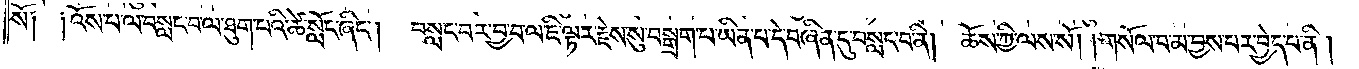སོ༑ ༑འོས་པ་ལ་བསླང་བ་ལ་ཐུག་པའི་ཚེ་སློང་ཞིང༌། བསླང་བར་བྱ་བ་ལ་ཇི་ལྟར་རྗེས་སུ་བསྒྲག་པ་ཡིན་པ་དེ་བཞིན་དུ་བསླང་བ་ནི། ཆོས་ཀྱི་ལས་སོ། །གསོལ་པ་མ་བྱས་པར་བྱེད་པ་ནི།
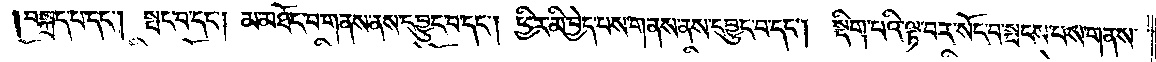བསྐྲད་པ་དང༌། སྤང་བ་དང༌། མ་མཐོང་བ་གནས་ནས་དབྱུང་བ་དང༌། ཕྱིར་མི་བྱེད་པས་གནས་ནས་དབྱུང་བ་དང༌། སྡིག་པའི་ལྟ་བར་སོང་བ་སྤངས་པས་གནས་
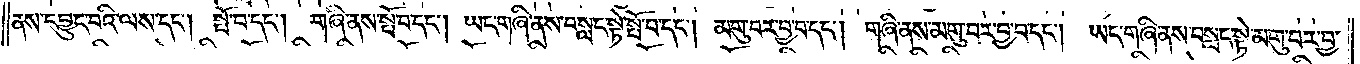ནས་དབྱུང་བའི་ལས་དང༌། སྤོ་བ་དང༌། གཞི་ནས་སྤོ་བ་དང༌། ཡང་གཞི་ནས་བསླང་སྟེ་སྤོ་བ་དང༌། མགུ་བར་བྱ་བ་དང༌། གཞི་ནས་མགུ་བར་བྱ་བ་དང༌། ཡང་གཞི་ནས་བསླང་སྟེ་མགུ་བར་བྱ་
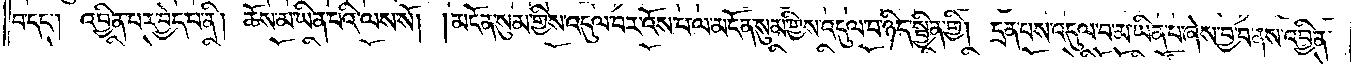བ་དང༌། འབྱིན་པར་བྱེད་པ་ནི། ཆོས་མ་ཡིན་པའི་ལས་སོ། །མངོན་སུམ་གྱིས་འདུལ་བར་འོས་པ་ལ་མངོན་སུམ་གྱིས་འདུལ་བ་ཉིད་སྦྱིན་གྱི། དྲན་པས་འདུལ་བ་མ་ཡིན་པ་ཞེས་བྱ་བ་ནས་འབྱིན་
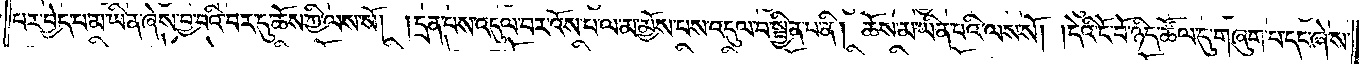པར་བྱེད་པ་མ་ཡིན་ཞེས་བྱ་བའི་བར་དུ་ཆོས་ཀྱི་ལས་སོ། །དྲན་པས་འདུལ་བར་འོས་པ་ལ་མ་མྱོས་པས་འདུལ་བ་སྦྱིན་པ་ནི། །ཆོས་མ་ཡིན་པའི་ལས་སོ། །དེའི་ངོ་བོ་ཉིད་ཚོལ་དུ་གཞུག་པ་དང་ཞེས་
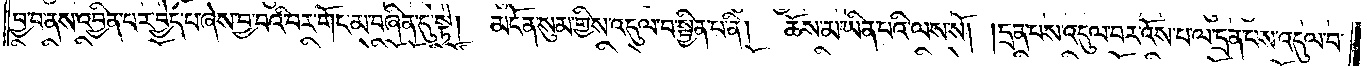བྱ་བ་ནས་འབྱིན་པར་བྱེད་པ་ཞེས་བྱ་བའི་བར་གོང་མ་བཞིན་དུ་སྟེ། མངོན་སུམ་གྱིས་འདུལ་བ་སྦྱིན་པ་ནི། ཆོས་མ་ཡིན་པའི་ལས་སོ། །དྲན་པས་འདུལ་བར་འོས་པ་ལ་དྲན་པས་འདུལ་བ་
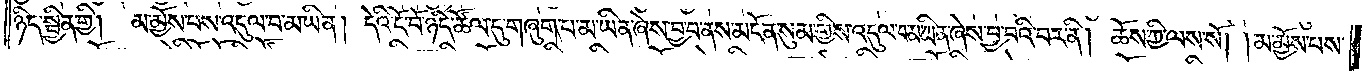ཉིད་སྦྱིན་གྱི། མ་མྱོས་པས་འདུལ་བ་མ་ཡིན། དེའི་ངོ་བོ་ཉིད་ཚོལ་དུ་གཞུག་པ་མ་ཡིན་ཞེས་བྱ་བ་ནས་མངོན་སུམ་གྱིས་འདུལ་བ་མ་ཡིན་ཞེས་བྱ་བའི་བར་ནི། ཆོས་ཀྱི་ལས་སོ། །མ་མྱོས་པས་
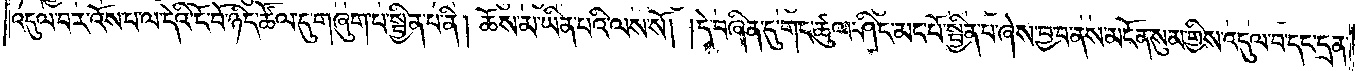འདུལ་བར་འོས་པ་ལ་དེའི་ངོ་བོ་ཉིད་ཚོལ་དུ་གཞུག་པ་སྦྱིན་པ་ནི། ཆོས་མ་ཡིན་པའི་ལས་སོ། དེ་བཞིན་དུ་གང་ཚུལ་ཤིང་མང་པོ་སྦྱིན་པ་ཞེས་བྱ་བ་ནས་མངོན་སུམ་གྱིས་འདུལ་བ་དང་དྲན་
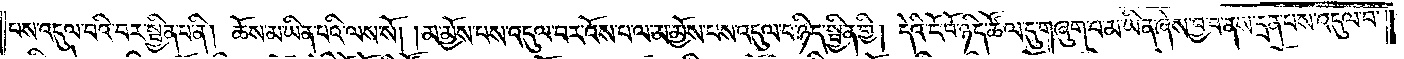པས་འདུལ་བའི་བར་སྦྱིན་པ་ནི། ཆོས་མ་ཡིན་པའི་ལས་སོ། །མ་མྱོས་པས་འདུལ་བར་འོས་པ་ལ་མ་མྱོས་པས་འདུལ་བ་ཉིད་སྦྱིན་གྱི། དེའི་ངོ་བོ་ཉིད་ཚོལ་དུ་གཞུག་པ་མ་ཡིན་ཞེས་བྱ་བ་ནས་དྲན་པས་འདུལ་བ་
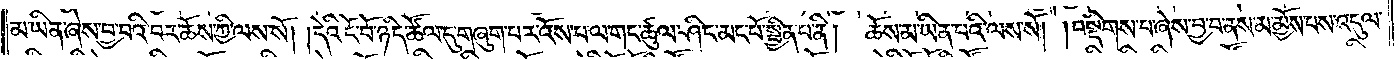མ་ཡིན་ཞེས་བྱ་བའི་བར་ཆོས་ཀྱི་ལས་སོ། །དེའི་ངོ་བོ་ཉིད་ཚོལ་དུ་གཞུག་པར་འོས་པ་ལ་གང་ཚུལ་ཤིང་མང་པོ་སྦྱིན་པ་ནི། ཆོས་མ་ཡིན་པའི་ལས་སོ། །བསྡིགས་པ་ཞེས་བྱ་བ་ནས་མ་མྱོས་པས་འདུལ་
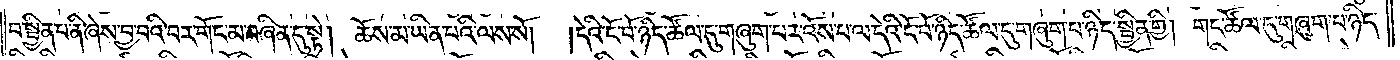བ་སྦྱིན་པ་ནི་ཞེས་བྱ་བའི་བར་གོང་མ་བཞིན་དུ་སྟེ། ཆོས་མ་ཡིན་པའི་ལས་སོ། །དེའི་ངོ་བོ་ཉིད་ཚོལ་དུ་གཞུག་པར་འོས་པ་ལ་དེའི་ངོ་བོ་ཉིད་ཚུལ་དུ་གཞུག་པ་ཉིད་སྦྱིན་གྱི། གང་ཚོལ་དུ་གཞུག་པ་ཉིད་
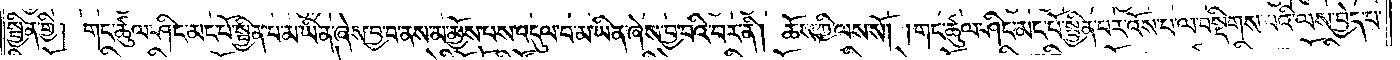སྦྱིན་གྱི། གང་ཚུལ་ཤིང་མང་པོ་སྦྱིན་པ་མ་ཡིན་ཞེས་བྱ་བ་ནས་མ་མྱོས་པས་འདུལ་བ་མ་ཡིན་ཞེས་བྱ་བའི་བར་ནི། ཆོས་ཀྱི་ལས་སོ། །གང་ཚུལ་ཤིང་མང་པོ་སྦྱིན་པར་འོས་པ་ལ་བསྡིགས་པའི་ལས་བྱེད་པ་
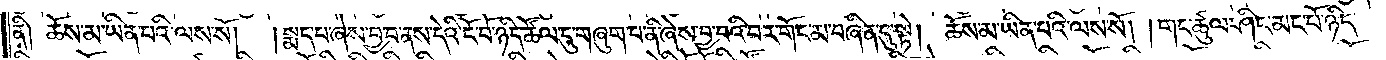ནི། ཆོས་མ་ཡིན་པའི་ལས་སོ། །སྨད་པ་ཞེས་བྱ་བ་ནས་དེའི་ངོ་བོ་ཉིད་ཚོལ་དུ་གཞུག་པ་ནི་ཞེས་བྱ་བའི་བར་གོང་མ་བཞིན་དུ་སྟེ། ཆོས་མ་ཡིན་པའི་ལས་སོ། །གང་ཚུལ་ཤིང་མང་པོ་ཉིད་
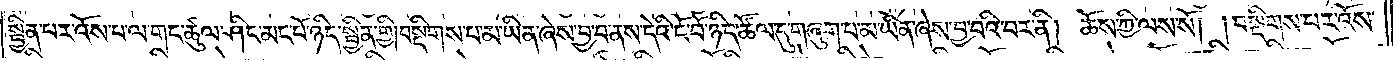སྦྱིན་པར་འོས་པ་ལ་གང་ཚུལ་ཤིང་མང་པོ་ཉིད་སྦྱིན་གྱི། བསྡིགས་པ་མ་ཡིན་ཞེས་བྱ་བ་ནས་དེའི་ངོ་བོ་ཉིད་ཚོལ་དུ་གཞུག་པ་མ་ཡིན་ཞེས་བྱ་བའི་བར་ནི། ཆོས་ཀྱི་ལས་སོ། །བསྡིགས་པར་འོས་
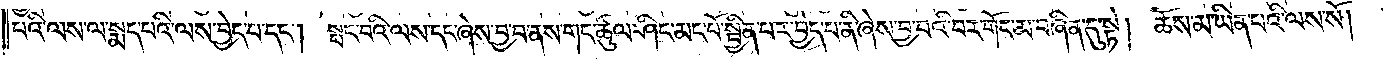པའི་ལས་ལ་སྨད་པའི་ལས་བྱེད་པ་དང༌། སྤང་བའི་ལས་དང་ཞེས་བྱ་བ་ནས་གང་ཚུལ་ཤིང་མང་པོ་སྦྱིན་པར་བྱེད་པ་ནི་ཞེས་བྱ་བའི་བར་གོང་མ་བཞིན་དུ་སྟེ། ཆོས་མ་ཡིན་པའི་ལས་སོ། །
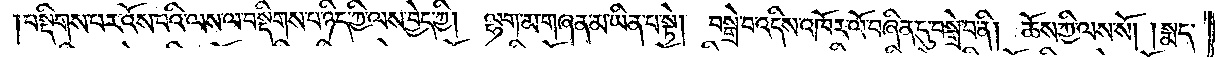།བསྡིགས་པར་འོས་པའི་ལས་ལ་བསྡིགས་པ་ཉིད་ཀྱི་ལས་བྱེད་ཀྱི། ལྷག་མ་གཞན་མ་ཡིན་པ་སྟེ། བསྒྲེ་བ་འདིས་འཁོར་ལོ་བཞིན་དུ་བསྒྲེ་བ་ནི། ཆོས་ཀྱི་ལས་སོ། །སྨད་
